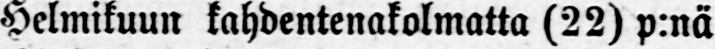Helmikuun kahdentenakolmatta (22) p:nä
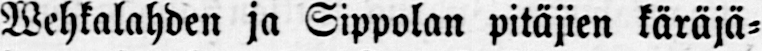Wehkalahden ja Sippolan pitäjien käräjä-
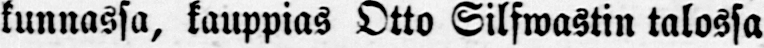kunnassa, kauppias Otto Silfwastin talossa
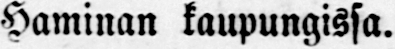Haminan kaupungissa.
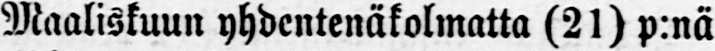Maaliskuun yhdentenäkolmatta (21) p:nä
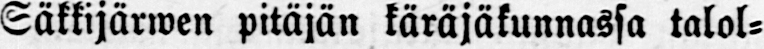Säkkijärwen pitäjän käräjäkunnassa talol-
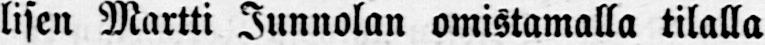lisen Martti Junnolan omistamalla tilalla
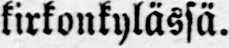kirkonkylässä.
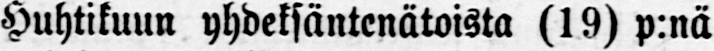Huhtikuun yhdeksäntenätoista (19) p:nä
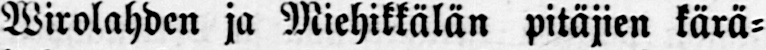Wirolahden ja Miehikkälän pitäjien kärä-
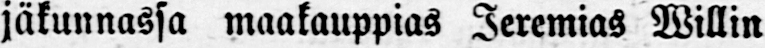jäkunnassa maakauppias Jeremias Willin
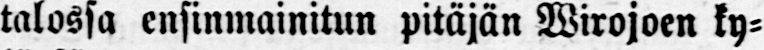talossa ensinmainitun pitäjän Wirojoen ky-
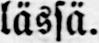lässä.
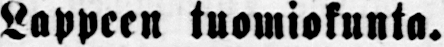Lappeen tuomiokunta.
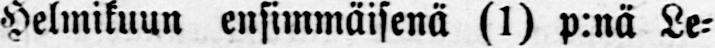Helmikuun ensimmäisenä (1) p:nä Le-
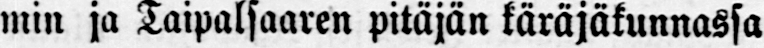min ja Taipalsaaren pitäjän käräjäkunnassa
